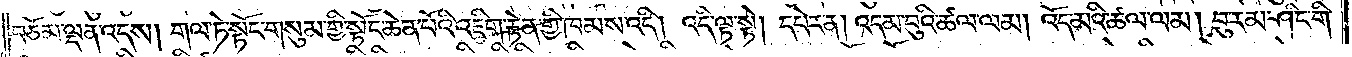བཅོམ་ལྡན་འདས། གལ་ཏེ་སྟོང་གསུམ་གྱི་སྟོང་ཆེན་པོའི་འཇིག་རྟེན་གྱི་ཁམས་འདི། འདི་ལྟ་སྟེ། དཔེར་ན། འདམ་བུའི་ཚལ་ལམ། འོད་མའི་ཚལ་ལམ། བུ་རམ་ཤིང་གི་
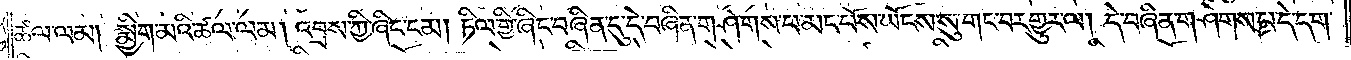ཚལ་ལམ། སྨྱིག་མའི་ཚལ་ལམ། འབྲས་ཀྱི་ཞིང་ངམ། ཏིལ་གྱི་ཞིང་བཞིན་དུ་དེ་བཞིན་གཤེགས་པ་མང་པོས་ཡོངས་སུ་གང་བར་གྱུར་ལ། དེ་བཞིན་གཤེགས་པ་དེ་དག་
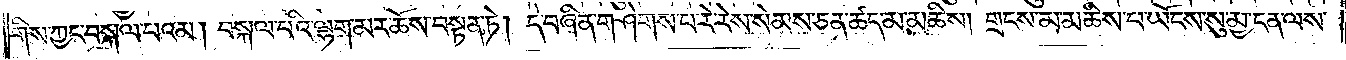གིས་ཀྱང་བསྐལ་བའམ། བསྐལ་པའི་ལྷག་མར་ཆོས་བསྟན་ཏེ། དེ་བཞིན་གཤེགས་པ་རེ་རེས་སེམས་ཅན་ཚད་མ་མཆིས། གྲངས་མ་མཆིས་པ་ཡོངས་སུ་མྱ་ངན་ལས་
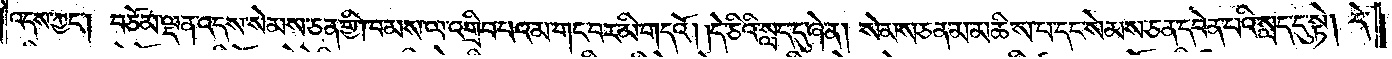འདས་ཀྱང༌། བཅོམ་ལྡན་འདས་སེམས་ཅན་གྱི་ཁམས་ལ་འགྲིབ་པའམ་གང་བར་མི་གདའོ། །དེ་ཅིའི་སླད་དུ་ཞེ་ན། སེམས་ཅན་མ་མཆིས་པ་དང་སེམས་ཅན་དབེན་པའི་སླད་དུ་སྟེ། དེ་
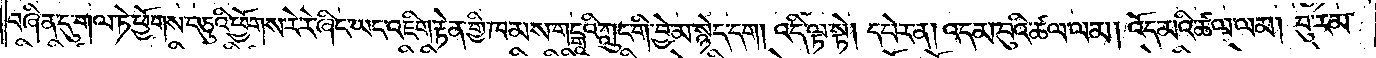བཞིན་དུ་གལ་ཏེ་ཕྱོགས་བཅུའི་ཕྱོགས་རེ་རེ་ཞིང་ཡང་འཇིག་རྟེན་གྱི་ཁམས་གངྒཱའི་ཀླུང་གི་བྱེ་མ་སྙེད་དག། འདི་ལྟ་སྟེ། དཔེར་ན། འདམ་བུའི་ཚལ་ལམ། འོད་མའི་ཚལ་ལམ། བུ་རམ་
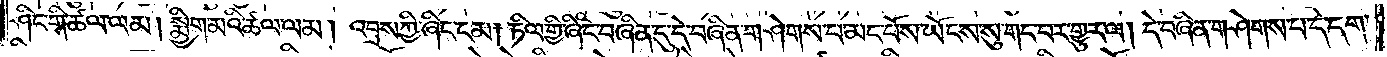ཤིང་གི་ཚལ་ལམ། སྨྱིག་མའི་ཚལ་ལམ། འབྲས་ཀྱི་ཞིང་ངམ། ཏིལ་གྱི་ཞིང་བཞིན་དུ་དེ་བཞིན་གཤེགས་པ་མང་པོས་ཡོངས་སུ་གང་བར་གྱུར་ལ། དེ་བཞིན་གཤེགས་པ་དེ་དག་
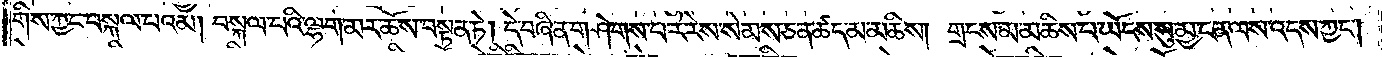གིས་ཀྱང་བསྐལ་པའམ། བསྐལ་པའི་ལྷག་མར་ཆོས་བསྟན་ཏེ། དེ་བཞིན་གཤེགས་པ་རེ་རེས་སེམས་ཅན་ཚད་མ་མཆིས། གྲངས་མ་མཆིས་པ་ཡོངས་སུ་མྱ་ངན་ལས་འདས་ཀྱང༌།
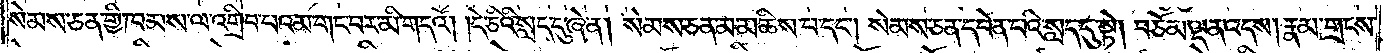སེམས་ཅན་གྱི་ཁམས་ལ་འགྲིབ་པའམ་གང་བར་མི་གདའོ། །དེ་ཅིའི་སླད་དུ་ཞེ་ན། སེམས་ཅན་མ་མཆིས་པ་དང༌། སེམས་ཅན་དབེན་པའི་སླད་དུ་སྟེ། བཅོམ་ལྡན་འདས། རྣམ་གྲངས་
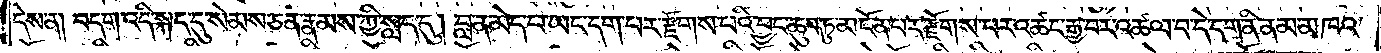དེས་ན། བདག་འདི་སྐད་དུ་སེམས་ཅན་རྣམས་ཀྱི་སླད་དུ། བླ་ན་མེད་པ་ཡང་དག་པར་རྫོགས་པའི་བྱང་ཆུབ་ཏུ་མངོན་པར་རྫོགས་པར་འཚང་རྒྱ་བར་འཚལ་བ་དེ་དག་ནི་ནམ་མཁའ་
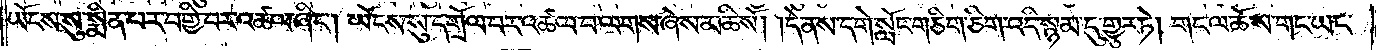ཡོངས་སུ་སྨིན་པར་བགྱི་བར་འཚལ་ཞིང༌། ཡོངས་སུ་དགྲོལ་བར་འཚལ་བ་ལགས་ཞེས་མཆིའོ། །དེ་ནས་དགེ་སློང་གཅིག་ཅིག་འདི་སྙམ་དུ་གྱུར་ཏེ། གང་ལ་ཆོས་གང་ཡང་
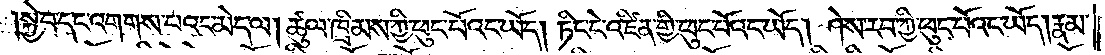སྐྱེ་བ་དང་འགགས་པའང་མེད་ལ། ཚུལ་ཁྲིམས་ཀྱི་ཕུང་པོའང་ཡོད། ཏིང་ངེ་འཛིན་གྱི་ཕུང་པོའང་ཡོད། ཤེས་རབ་ཀྱི་ཕུང་པོའང་ཡོད། རྣམ་
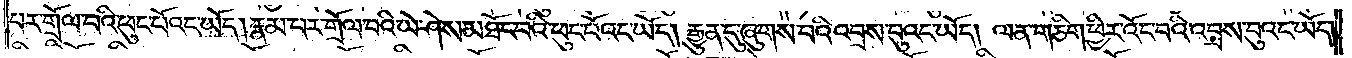པར་གྲོལ་བའི་ཕུང་པོའང་ཡོད། རྣམ་པར་གྲོལ་བའི་ཡེ་ཤེས་མཐོང་བའི་ཕུང་པོའང་ཡོད། རྒྱུན་དུ་ཞུགས་པའི་འབྲས་བུའང་ཡོད། ལན་གཅིག་ཕྱིར་འོང་བའི་འབྲས་བུའང་ཡོད།
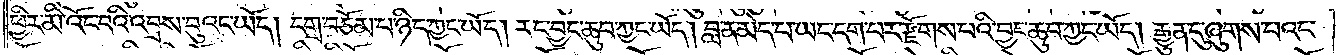ཕྱིར་མི་འོང་བའི་འབྲས་བུའང་ཡོད། དགྲ་བཅོམ་པ་ཉིད་ཀྱང་ཡོད། རང་བྱང་ཆུབ་ཀྱང་ཡོད། བླ་ན་མེད་པ་ཡང་དག་པར་རྫོགས་པའི་བྱང་ཆུབ་ཀྱང་ཡོད། རྒྱུན་དུ་ཞུགས་པའང་
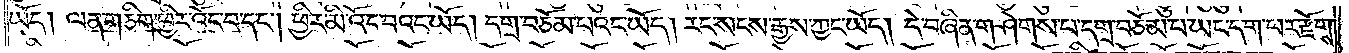ཡོད། ལན་གཅིག་ཕྱིར་འོང་བ་དང་། ཕྱིར་མི་འོང་བའང་ཡོད། དགྲ་བཅོམ་པའང་ཡོད། རང་སངས་རྒྱས་ཀྱང་ཡོད། དེ་བཞིན་གཤེགས་པ་དགྲ་བཅོམ་པ་ཡང་དག་པར་རྫོགས་
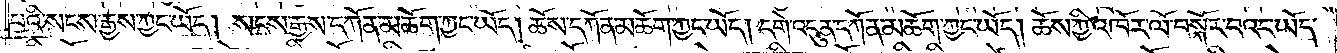པའི་སངས་རྒྱས་ཀྱང་ཡོད། སངས་རྒྱས་དཀོན་མཆོག་ཀྱང་ཡོད། ཆོས་དཀོན་མཆོག་ཀྱང་ཡོད། དགེ་འདུན་དཀོན་མཆོག་ཀྱང་ཡོད། ཆོས་ཀྱི་འཁོར་ལོ་བསྐོར་བའང་ཡོད་
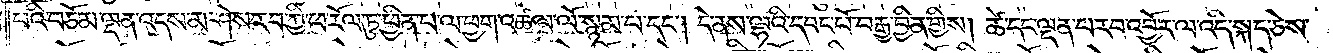པའི་བཅོམ་ལྡན་འདས་མ་ཤེས་རབ་ཀྱི་ཕ་རོལ་ཏུ་ཕྱིན་པ་ལ་ཕྱག་འཚལ་ལོ་སྙམ་པ་དང༌། དེ་ནས་ལྷའི་དབང་པོ་བརྒྱ་བྱིན་གྱིས། ཚེ་དང་ལྡན་པ་རབ་འབྱོར་ལ་འདི་སྐད་ཅེས་
